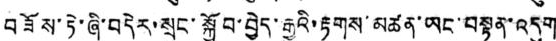བཟོས་ཏེ་ཞི་བདེར་སྲུང་སྐྱོབ་བྱེད་རྒྱུའི་རྟགས་མཚན་ཡང་བསྟན་འདུག
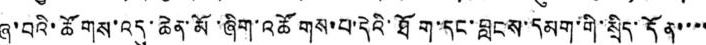ཞུ་བའི་ཚོགས་འདུ་ཆེན་མོ་ཞིག་འཚོགས་པ་དེའི་ཐོག་དང་བླངས་དམག་གི་སྲིད་དོན་་་་
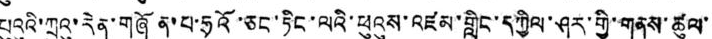པུའུའི་ཀྲུའུ་རེན་གཞོན་པ་ཧྲའོ་ཅང་ཏིང་ལའི་ཕུའུས་འཛམ་གླིང་དཀྱིལ་ཤར་གྱི་གནས་ཚུལ་
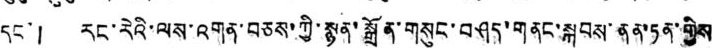དང་། རང་རེའི་ལས་འགན་བཅས་ཀྱི་སྙན་སྒྲོན་གསུང་བཤད་གནང་སྐབས་ནན་ཏན་གྱིས
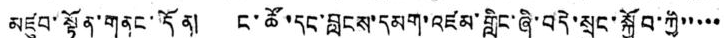མཛུལ་སྟོན་གནང་དོན། ང་ཚོ་དང་བླངས་དམག་འཛམ་གླིང་ཞི་བདེ་སྲུང་སྐྱོབ་ཀྱི་་་་་
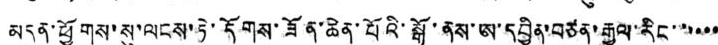མདུན་ཕྱོགས་སུ་ལངས་ཏེ་དོགས་ཟོན་ཆེན་པོའི་སྒོ་ནས་ཨ་དབྱིན་བཙན་རྒྱལ་རིང་་་་་་
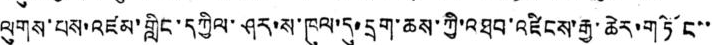ལུགས་པས་འཛམ་གླིང་དཀྱིལ་ཤར་ས་ཁུལ་དུ་དྲག་ཆས་ཀྱི་འཐབ་འཛིངས་རྒྱ་ཆེར་གཏོང་་
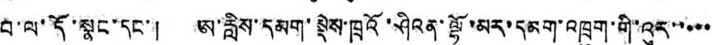བ་ལ་དོ་སྣང་དང་། ཨ་རླིས་དམག་སྡེས་ཁྲའོ་ཤིའན་ལྷོ་མར་དམག་འཁྲུག་གི་འུར་་་་་
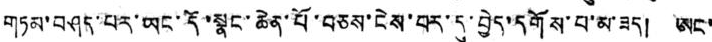གཏམ་བཤད་པར་ཡང་དོ་སྣང་ཆེན་པོ་བཅས་ངེས་པར་དུ་བྱེད་དགོས་པ་མ་ཟད། ཨང་
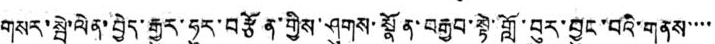གསར་སྦེ་ལེན་བྱེད་རྒྱུར་ཧུར་བརྩོན་གྱིས་ཤུགས་སྣོན་བརྒྱབ་སྟེ་གློ་བུར་བྱུང་བའི་གནས་་་་
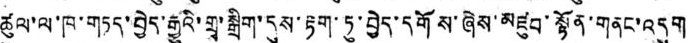ཚུལ་ལ་ཁ་གཏད་བྱེད་རྒྱུའི་གྲྭ་སྒྲིག་དུས་རྟག་ཏུ་བྱེད་དགོས་ཞེས་མཛུབ་སྟོན་གནང་འདུག
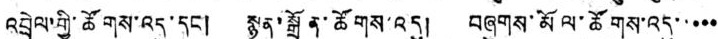འབྲེལ་གྱི་ཚོགས་འདུ་དང། སྙན་སྒྲོན་ཚོགས་འདུ། བཞུགས་མོལ་ཚོགས་འདུ་་་་་
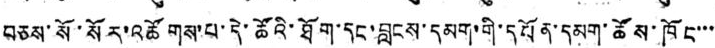བཅས་སོ་སོར་འཚོགས་པ་དེ་ཚོའི་ཐོག་དང་བླངས་དམག་གི་དཔོན་དམག་ཚོས་ཁོང་་་
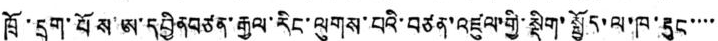ཁྲོ་དྲག་པོས་ཨ་དབྱིན བཙན་རྒྱལ་རིང་ལུགས་པའི་བཙན་འཛུལ་གྱི་སྡིག་སྤྱོད་ལ་ཁ་རྡུང་་་་
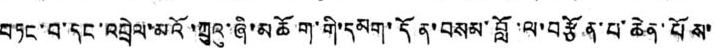བཏང་བ་དང་འབྲེལ་མའོ་ཀྲུའུ་ཞི་མཆོག་གི་དམག་དོན་བསམ་བློ་ལ་བརྩོན་པ་ཆེན་པོས་
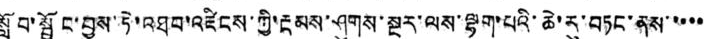སློབ་སྦྱོང་བྱས་ཏེ་འཐབ་འཛིངས་ཀྱི་རྔམས་ཤུགས་སྔར་ལས་ལྷག་པའི་ཆེ་རུ་བཏང་ནས་་་་་
